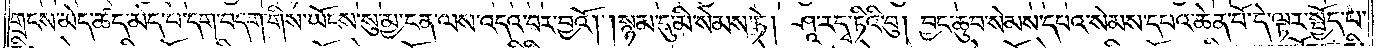གྲངས་མེད་ཚད་མེད་པ་དག་བདག་གིས་ཡོངས་སུ་མྱ་ངན་ལས་འདའ་བར་བྱའོ། །སྙམ་དུ་མི་སེམས་ཏེ། ཤཱ་རདྭ་ཏིའི་བུ། བྱང་ཆུབ་སེམས་དཔའ་སེམས་དཔའ་ཆེན་པོ་དེ་ལྟར་སྤྱོད་པ་
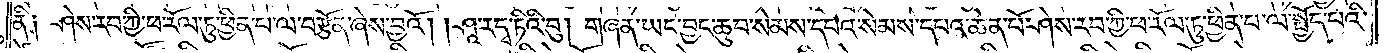ནི༑ ཤེས་རབ་ཀྱི་ཕ་རོལ་ཏུ་ཕྱིན་པ་ལ་བརྩོན་ཞེས་བྱའོ། །ཤཱ་རདྭ་ཏིའི་བུ། གཞན་ཡང་བྱང་ཆུབ་སེམས་དཔའ་སེམས་དཔའ་ཆེན་པོ་ཤེས་རབ་ཀྱི་ཕ་རོལ་ཏུ་ཕྱིན་པ་ལ་སྤྱོད་པའི་
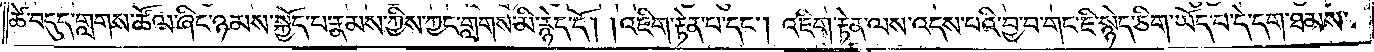ཚེ་བདུད་གླགས་ཚོལ་ཞིང་ཉམས་སྐྱོད་པ་རྣམས་ཀྱིས་ཀྱང་གླགས་མི་རྙེད་དོ། །འཇིག་རྟེན་པ་དང༌། འཇིག་རྟེན་ལས་འདས་པའི་བྱ་བ་གང་ཇི་སྙེད་ཅིག་ཡོད་པ་དེ་དག་ཐམས་
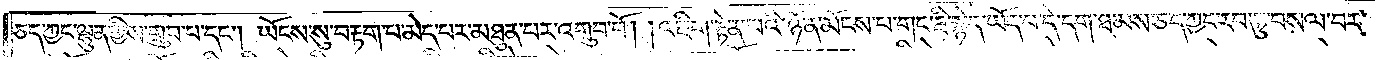ཅད་ཀྱང་ལྷུན་གྱིས་གྲུབ་པ་དང༌། ཡོངས་སུ་བརྟག་པ་མེད་པར་མཐུན་པར་འགྲུབ་བོ། །འཇིག་རྟེན་པའི་ཉོན་མོངས་པ་གང་ཇི་སྙེད་ཡོད་པ་དེ་དག་ཐམས་ཅད་ཀྱང་རབ་ཏུ་བསལ་བར་
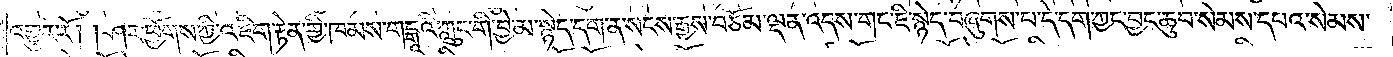འགྱུར་རོ། །ཤར་ཕྱོགས་ཀྱི་འཇིག་རྟེན་གྱི་ཁམས་གངྒཱའི་ཀླུང་གི་བྱེ་མ་སྙེད་དག་ན་སངས་རྒྱས་བཅོམ་ལྡན་འདས་གང་ཇི་སྙེད་བཞུགས་པ་དེ་དག་ཀྱང་བྱང་ཆུབ་སེམས་དཔའ་སེམས་
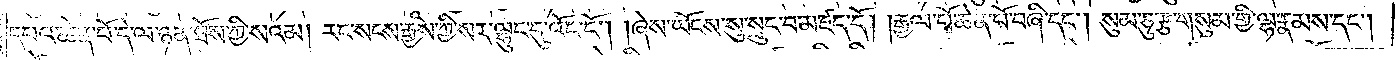དཔའ་ཆེན་པོ་དེ་ལ་ཉན་ཐོས་ཀྱི་སའམ། རང་སངས་རྒྱས་ཀྱི་སར་ལྷུང་དུ་འོང་ངོ༌། །ཞེས་ཡོངས་སུ་སྲུང་བ་མཛད་དོ། །རྒྱལ་པོ་ཆེན་པོ་བཞི་དང༌། སུམ་ཅུ་རྩ་གསུམ་གྱི་ལྷ་རྣམས་དང༌།
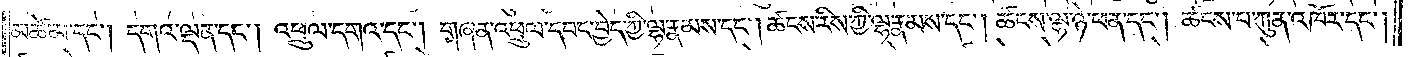མཚེ་མ་དང༌། དགའ་ལྡན་དང༌། འཕྲུལ་དགའ་དང༌། གཞན་འཕྲུལ་དབང་བྱེད་ཀྱི་ལྷ་རྣམས་དང༌། ཚངས་རིས་ཀྱི་ལྷ་རྣམས་དང༌། ཚངས་ལྷ་ཉེ་ཕན་དང༌། ཚངས་པ་ཀུན་འཁོར་དང༌།
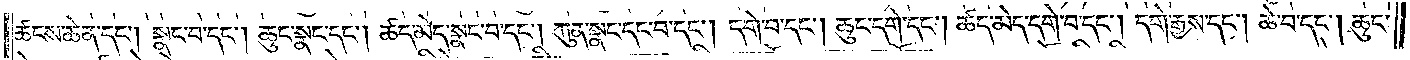ཚངས་ཆེན་དང༌། སྣང་བ་དང༌། ཆུང་སྣང་དང༌། ཚད་མེད་སྣང་བ་དང༌། ཀུན་སྣང་དང་བ་དང༌། དགེ་བ་དང༌། ཆུང་དགེ་དང༌། ཚད་མེད་དགེ་བ་དང༌། དགེ་རྒྱས་དང༌། ཆེ་བ་དང༌། ཆུང་
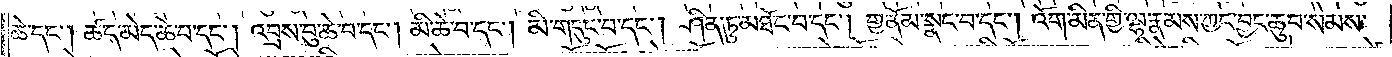ཆེ་དང༌། ཚད་མེད་ཆེ་བ་དང༌། འབྲས་བུ་ཆེ་བ་དང༌། མི་ཆེ་བ་དང༌། མི་གདུང་བ་དང༌། ཤིན་ཏུ་མཐོང་བ་དང༌། གྱ་ནོམ་སྣང་བ་དང༌། འོག་མིན་གྱི་ལྷ་རྣམས་ཀྱང་བྱང་ཆུབ་སེམས་
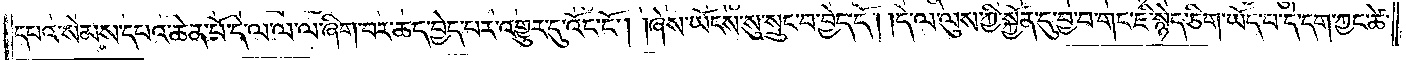དཔའ་སེམས་དཔའ་ཆེན་པོ་དེ་ལ་ལ་ལ་ཞིག་བར་ཆད་བྱེད་པར་འགྱུར་དུ་འོང་ངོ༌། །ཞེས་ཡོངས་སུ་སྲུང་བ་བྱེད་དོ། །དེ་ལ་ལུས་ཀྱི་སྐྱོན་དུ་བྱ་བ་གང་ཇི་སྙེད་ཅིག་ཡོད་པ་དེ་དག་ཀྱང་ཚེ་
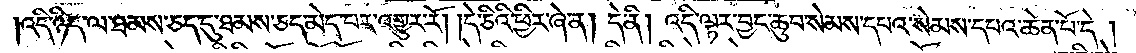འདི་ཉིད་ལ་ཐམས་ཅད་དུ་ཐམས་ཅད་མེད་པར་འགྱུར་རོ། །དེ་ཅིའི་ཕྱིར་ཞེ་ན། དེ་ནི། འདི་ལྟར་བྱང་ཆུབ་སེམས་དཔའ་སེམས་དཔའ་ཆེན་པོ་དེ་།
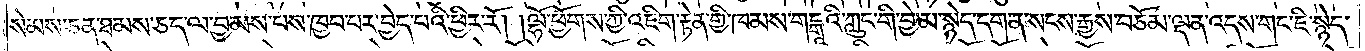སེམས་ཅན་ཐམས་ཅད་ལ་བྱམས་པས་ཁྱབ་པར་བྱེད་པའི་ཕྱིར་རོ། །ལྷོ་ཕྱོགས་ཀྱི་འཇིག་རྟེན་གྱི་ཁམས་གངྒཱའི་ཀླུང་གི་བྱེ་མ་སྙེད་དག་ན་སངས་རྒྱས་བཅོམ་ལྡན་འདས་གང་ཇི་སྙེད་
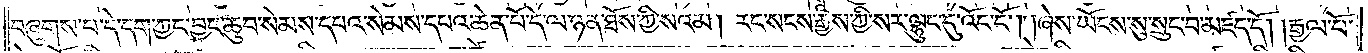བཞུགས་པ་དེ་དག་ཀྱང་བྱང་ཆུབ་སེམས་དཔའ་སེམས་དཔའ་ཆེན་པོ་དེ་ལ་ཉན་ཐོས་ཀྱི་སའམ། རང་སངས་རྒྱས་ཀྱི་སར་ལྷུང་དུ་འོང་ངོ༌། །ཞེས་ཡོངས་སུ་སྲུང་བ་མཛད་དོ། །རྒྱལ་པོ་
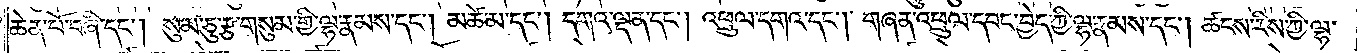ཆེན་པོ་བཞི་དང༌། སུམ་ཅུ་རྩ་གསུམ་གྱི་ལྷ་རྣམས་དང༌། མཚེ་མ་དང༌། དགའ་ལྡན་དང༌། འཕྲུལ་དགའ་དང༌། གཞན་འཕྲུལ་དབང་བྱེད་ཀྱི་ལྷ་རྣམས་དང༌། ཚངས་རིས་ཀྱི་ལྷ་
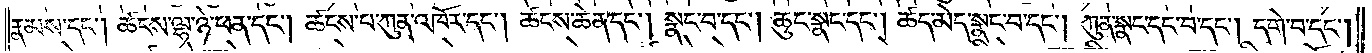རྣམས་དང༌། ཚངས་ལྷ་ཉེ་ཕན་དང༌། ཚངས་པ་ཀུན་འཁོར་དང༌། ཚངས་ཆེན་དང༌། སྣང་བ་དང༌། ཆུང་སྣང་དང༌། ཚད་མེད་སྣང་བ་དང༌། ཀུན་སྣང་དང་བ་དང༌། དགེ་བ་དང༌།
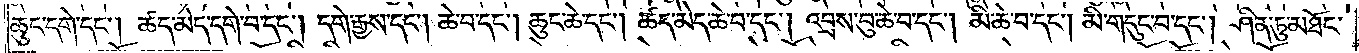ཆུང་དགེ་དང༌། ཚད་མེད་དགེ་བ་དང༌། དགེ་རྒྱས་དང༌། ཆེ་བ་དང༌། ཆུང་ཆེ་དང༌། ཚད་མེད་ཆེ་བ་དང༌། འབྲས་བུ་ཆེ་བ་དང༌། མི་ཆེ་བ་དང༌། མི་གདུང་བ་དང༌། ཤིན་ཏུ་མཐོང་
